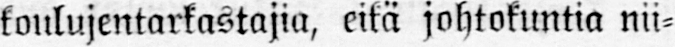koulujentarkastajia, eikä johtokuntia nii-
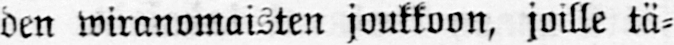den wiranomaisten joukkoon, joille tä-
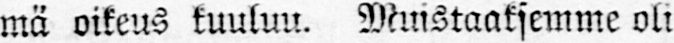mä oikeus kuuluu. Muistaaksemme oli
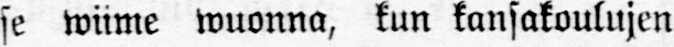se wiime wuonna, kun kansakoulujen
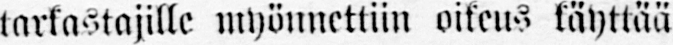tarkastajille myönnettiin oikeus käyttää
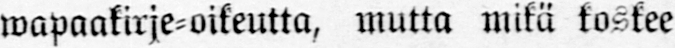wapaakirje-oikeutta, mutta mikä koskee
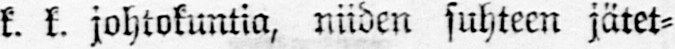k. k. johtokuntia, niiden suhteen jätet-
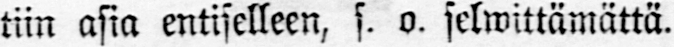tiin asia entiselleen, s. o. selwittämättä.
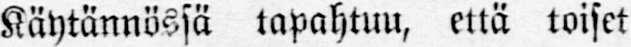Käytännössä tapahtuu, että toiset
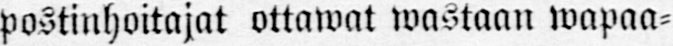postinhoitajat ottawat wastaan wapaa-
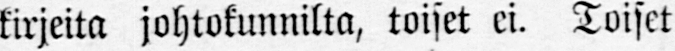kirjeita johtokunnilta, toiset ei. Toiset
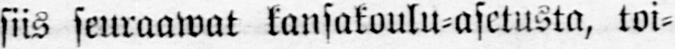siis seuraawat kansakoulu-asetusta, toi-
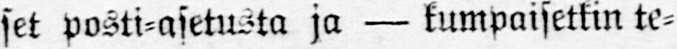set posti-asetusta ja — kumpaisetkin te-
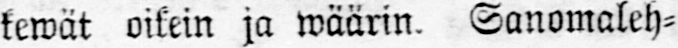kewät oikein ja wäärin. Sanomaleh-
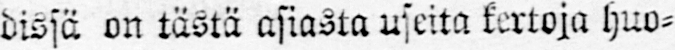dissä on tästä asiasta useita kertoja huo-
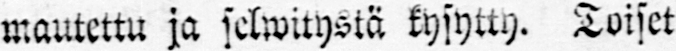mautettu ja selwitystä kysytty. Toiset
